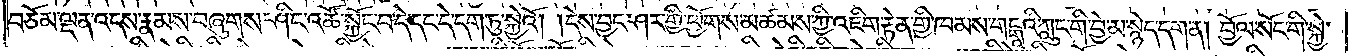བཅོམ་ལྡན་འདས་རྣམས་བཞུགས་ཤིང་འཚོ་སྐྱོང་བ་དེ་དང་དེ་དག་ཏུ་སྐྱེའོ། །དེས་བྱང་ཤར་གྱི་ཕྱོགས་མཚམས་ཀྱི་འཇིག་རྟེན་གྱི་ཁམས་གངྒཱའི་ཀླུང་གི་བྱེ་མ་སྙེད་དག་ན། བྱོལ་སོང་གི་སྐྱེ་
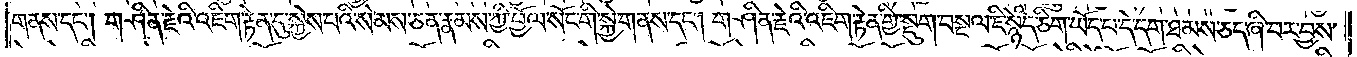གནས་དང༌། གཤིན་རྗེའི་འཇིག་རྟེན་དུ་སྐྱེས་པའི་སེམས་ཅན་རྣམས་ཀྱི་བྱོལ་སོང་གི་སྐྱེ་གནས་དང༌། གཤིན་རྗེའི་འཇིག་རྟེན་གྱི་སྡུག་བསྔལ་ཇི་སྙེད་ཅིག་ཡོད་པ་དེ་དག་ཐམས་ཅད་ཞི་བར་བྱས་
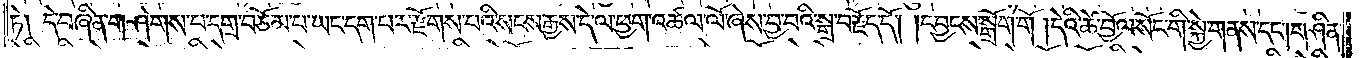ཏེ། དེ་བཞིན་གཤེགས་པ་དགྲ་བཅོམ་པ་ཡང་དག་པར་རྫོགས་པའི་སངས་རྒྱས་དེ་ལ་ཕྱག་འཚལ་ལོ་ཞེས་བྱ་བའི་སྒྲ་བརྗོད་དེ། །དབྱངས་སྒྲོག་གོ །དེའི་ཚེ་བྱོལ་སོང་གི་སྐྱེ་གནས་དང༌། གཤིན་
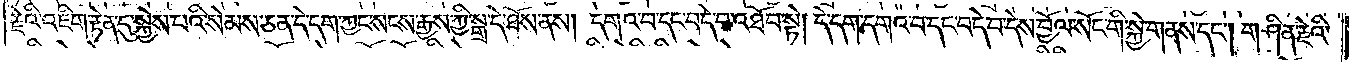རྗེའི་འཇིག་རྟེན་དུ་སྐྱེས་པའི་སེམས་ཅན་དེ་དག་ཀྱང་སངས་རྒྱས་ཀྱི་སྒྲ་དེ་ཐོས་ནས། དགའ་བ་དང་བདེ་བ་འཐོབ་སྟེ། དེ་དག་དགའ་བ་དང་བདེ་བ་དེས་བྱོལ་སོང་གི་སྐྱེ་གནས་དང༌། གཤིན་རྗེའི་
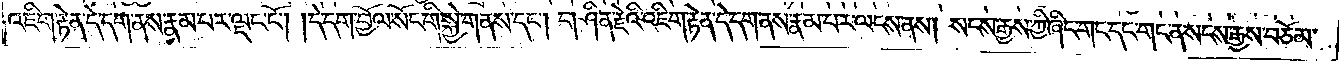འཇིག་རྟེན་དེ་དག་ནས་རྣམ་པར་ལྡང་ངོ༌། །དེ་དག་བྱོལ་སོང་གི་སྐྱེ་གནས་དང༌། གཤིན་རྗེའི་འཇིག་རྟེན་དེ་དག་ནས་རྣམ་པར་ལངས་ནས། སངས་རྒྱས་ཀྱི་ཞིང་གང་དང་གང་ན་སངས་རྒྱས་བཅོམ་
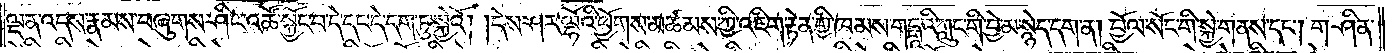ལྡན་འདས་རྣམས་བཞུགས་ཤིང་འཚོ་སྐྱོང་བ་དེ་དང་དེ་དག་ཏུ་སྐྱེའོ། །དེས་ཤར་ལྷོའི་ཕྱོགས་མཚམས་ཀྱི་འཇིག་རྟེན་གྱི་ཁམས་གངྒཱའི་ཀླུང་གི་བྱེ་མ་སྙེད་དག་ན། བྱོལ་སོང་གི་སྐྱེ་གནས་དང༌། གཤིན་
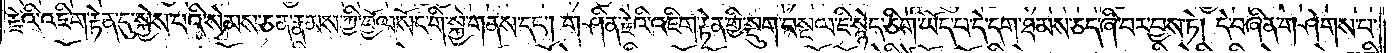རྗེའི་འཇིག་རྟེན་དུ་སྐྱེས་པའི་སེམས་ཅན་རྣམས་ཀྱི་བྱོལ་སོང་གི་སྐྱེ་གནས་དང༌། གཤིན་རྗེའི་འཇིག་རྟེན་གྱི་སྡུག་བསྔལ་ཇི་སྙེད་ཅིག་ཡོད་པ་དེ་དག་ཐམས་ཅད་ཞི་བར་བྱས་ཏེ། དེ་བཞིན་གཤེགས་པ་
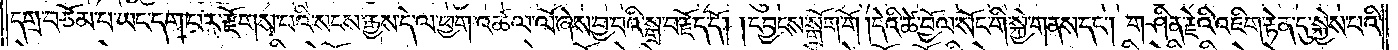དགྲ་བཅོམ་པ་ཡང་དག་པར་རྫོགས་པའི་སངས་རྒྱས་དེ་ལ་ཕྱག་འཚལ་ལོ་ཞེས་བྱ་བའི་སྒྲ་བརྗོད་དོ། །དབྱངས་སྒྲོག་གོ །དེའི་ཚེ་བྱོལ་སོང་གི་སྐྱེ་གནས་དང༌། གཤིན་རྗེའི་འཇིག་རྟེན་དུ་སྐྱེས་པའི་
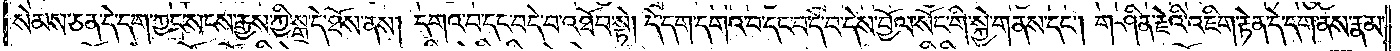སེམས་ཅན་དེ་དག་ཀྱང་སངས་རྒྱས་ཀྱི་སྒྲ་དེ་ཐོས་ནས། དགའ་བ་དང་བདེ་བ་འཐོབ་སྟེ། དེ་དག་དགའ་བ་དང་བདེ་བ་དེས་བྱོལ་སོང་གི་སྐྱེ་གནས་དང༌། གཤིན་རྗེའི་འཇིག་རྟེན་དེ་དག་ནས་རྣམ་
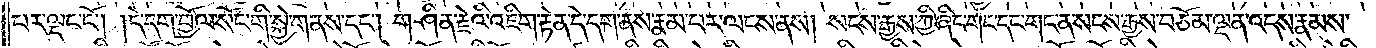པར་ལྡང་ངོ༌། །དེ་དག་བྱོལ་སོང་གི་སྐྱེ་གནས་དང༌། གཤིན་རྗེའི་འཇིག་རྟེན་དེ་དག་ནས་རྣམ་པར་ལངས་ནས། སངས་རྒྱས་ཀྱི་ཞིང་གང་དང་གང་ནས་སངས་རྒྱས་བཅོམ་ལྡན་དས་རྣམས་
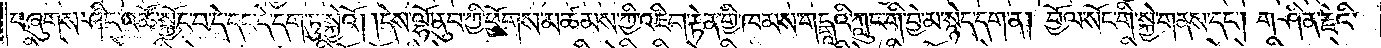བཞུགས་ཤིང་འཚོ་སྐྱོང་བ་དེ་དང་དེ་དག་ཏུ་སྐྱེའོ། །དེས་ལྷོ་ནུབ་ཀྱི་ཕྱོགས་མཚམས་ཀྱི་འཇིག་རྟེན་གྱི་ཁམས་གངྒཱའི་ཀླུང་གི་བྱེ་མ་སྙེད་དག་ན། བྱོལ་སོང་གི་སྐྱེ་གནས་དང༌། གཤིན་རྗེའི་
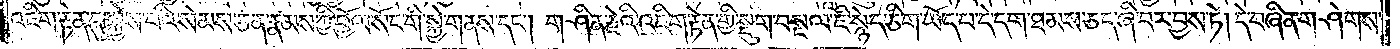འཇིག་རྟེན་དུ་སྐྱེས་པའི་སེམས་ཅན་རྣམས་ཀྱི་བྱོལ་སོང་གི་སྐྱེ་གནས་དང༌། གཤིན་རྗེའི་འཇིག་རྟེན་གྱི་སྡུག་བསྔལ་ཇི་སྙེད་ཅིག་ཡོད་པ་དེ་དག་ཐམས་ཅད་ཞི་བར་བྱས་ཏེ། དེ་བཞིན་གཤེགས་
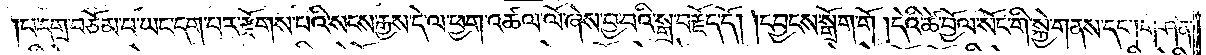པ་དགྲ་བཅོམ་པ་ཡང་དག་པར་རྫོགས་པའི་སངས་རྒྱས་དེ་ལ་ཕྱག་འཚལ་ལོ་ཞེས་བྱ་བའི་སྒྲ་བརྗོད་དོ། །དབྱངས་སྒྲོག་གོ །དེའི་ཚེ་བྱོལ་སོང་གི་སྐྱེ་གནས་དང༌། གཤིན་
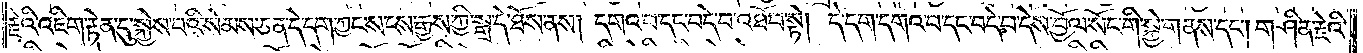རྗེའི་འཇིག་རྟེན་དུ་སྐྱེས་པའི་སེམས་ཅན་དེ་དག་ཀྱང་སངས་རྒྱས་ཀྱི་སྒྲ་དེ་ཐོས་ནས། དགའ་བ་དང་བདེ་བ་འཐོབ་སྟེ། དེ་དག་དགའ་བ་དང་བདེ་བ་དེས་བྱོལ་སོང་གི་སྐྱེ་གནས་དང༌། གཤིན་རྗེའི་
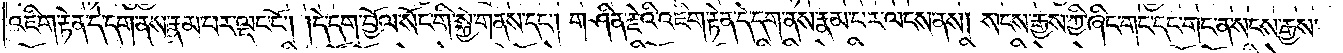འཇིག་རྟེན་དེ་དག་ནས་རྣམ་པར་ལྡང་ངོ༌། །དེ་དག་བྱོལ་སོང་གི་སྐྱེ་གནས་དང༌། གཤིན་རྗེའི་འཇིག་རྟེན་དེ་དག་ནས་རྣམ་པར་ལངས་ནས། སངས་རྒྱས་ཀྱི་ཞིང་གང་དང་གང་ན་སངས་རྒྱས་
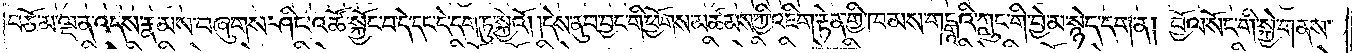བཅོམ་ལྡན་འདས་རྣམས་བཞུགས་ཤིང་འཚོ་སྐྱོང་བ་དེ་དང་དེ་དག་ཏུ་སྐྱེའོ། །དེས་ནུབ་བྱང་གི་ཕྱོགས་མཚམས་ཀྱི་འཇིག་རྟེན་གྱི་ཁམས་གངྒཱའི་ཀླུང་གི་བྱེ་མ་སྙེད་དག་ན། བྱོལ་སོང་གི་སྐྱེ་གནས་
